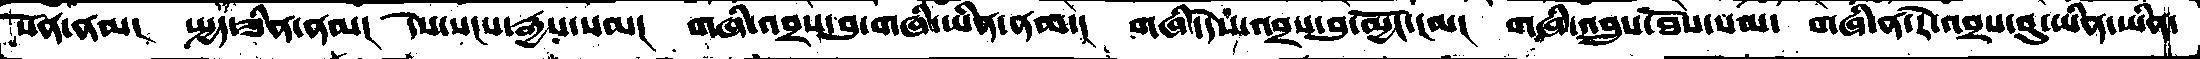སོན་ནམ།  སྤྱད་ཟིན་ནམ།  དེས་སངས་རྒྱས་སམ།  གཞི་འབྲས་བུ་གཞི་ཡིན་ནམ་།  གཞི་དེས་འབྲས་བུ་མྱོང་ངམ།  གཞི་འབྲུས་ཐོས་སམ་  གཞི་ན་རེ་འབྲས་བུ་ཡིན་ཡིན་
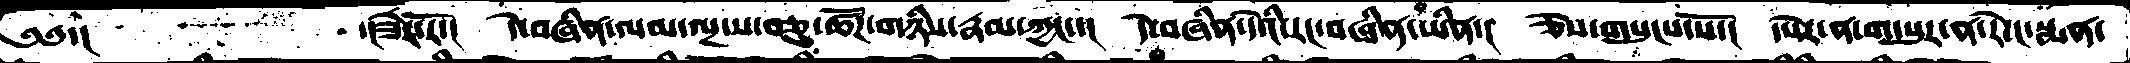༄༅་།     ་།ཟེར་རོ་།  དེ་བཞིན་ལམ་ལྔ་ས་བཅུ་ཚོཌ་གཉིས་རྣམ་ཀྱང་་།  དེ་བཞིན་དེའི་རང་བཞིན་ཡིན་།  ཅེས་གསུངས་སོ་།  དཔེར་ན་ག་པུར་ན་རེ་ང་སྨན་
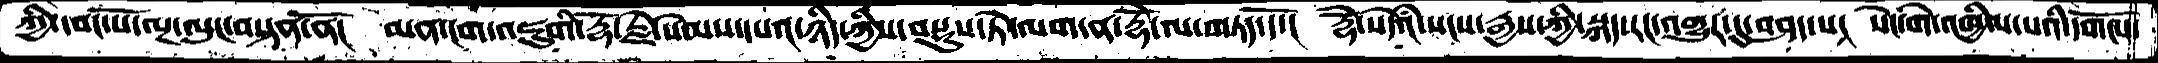ཀྱི་དབང་པོ་ལྔ་ལུང་བསྟན་ནོ། མན་ངག་འཇུགི་རྡོ་རྗེ་སེམས་དཔའ་ཉིད་ཀྱིས་བསྡུས་ཏེ་ལག་ན་རྡོ་རྗེ་ལ་གཏད་དོ་།  རྡོེ་སེདཾའ་སངས་རྒྱས་ཀྱི་སྐད་རང་འགྱུར་དུ་བཤད་།  སེང་གེ་འཁྱིལ་པའི་དགོངས་
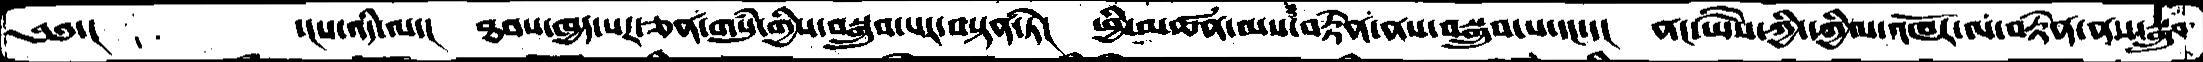༄༅་།     ་།ས་འདི་ལ་།  ཐབས་ཁྱད་པར་ཅན་གསུཾ་གྱིས་བསྒྲུབ་པར་བསྟན་ཏེ་།  ཕྱི་མཚན་མས་བརྟེན་ནས་བསྒྲུབ་པ་དང་་།  ནང་ཡཻས་ཀྱི་དཀྱིལ་འཁོར་ལ་བརྟེན་ནས་སྒྲུབ
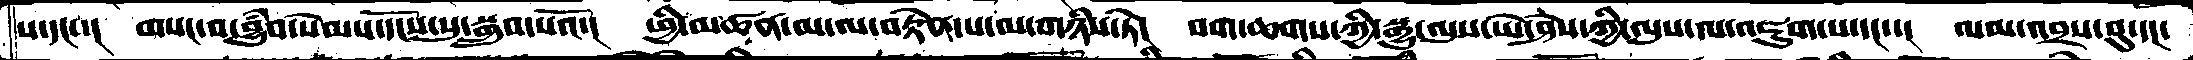པ་དང་་།  གསང་བ་བྱུཾབ་སེམས་དངོས་སུ་སྒྲུབ་པའོ་།  ཕྱི་མཚན་མ་ལ་བརྟེན་པ་ལ་གཉིས་ཏེ་།  བག་ཆགས་ཀྱི་སྒྱུ་ལུས་ཡེ་ཤེས་ཀྱི་ལུས་ལ་འཇུག་པ་དང་་།  ལམ་འབྲས་བུ་དང་
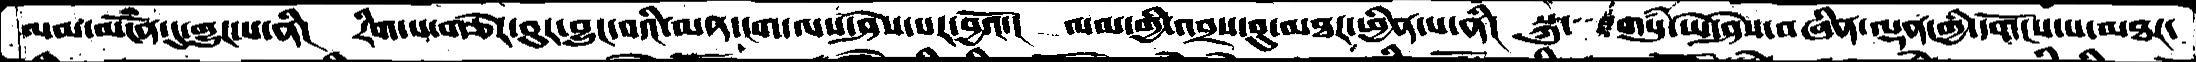ལམ་མངོན་དུ་གྱུར་པ་ནི།  རིག་པ་གཅེར་བུར་བྱུང་བའི་མན་ངག་ལས་ཤེས་པར་བྱའོ་།  ལམ་གྱི་འབྲས་བུ་མཐར་ཕྱིན་པ་ནི།  སྐུ་ གསུཾ་ཡེ་ཤེས་བཞིན་ལྡན་གྱི་དགོངས་པ་མཐར་
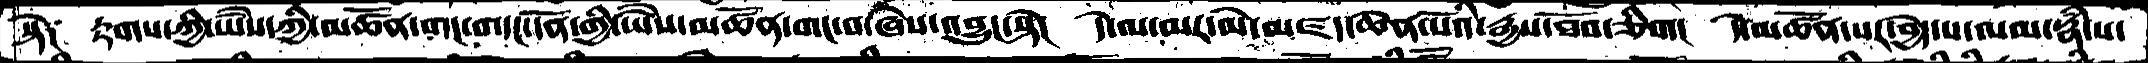སྟེ།   རྟགས་ཀྱི་ཡཻས་ཀྱི་མཚོན་གང་གདང་དོན་གྱི་ཡཻས་མཚོན་གང་བ་ཞེས་འབྱུང་སྟེ།  དེ་ལ་མར་མེ་མཛད་ཆེན་པོའི་རྒྱས་ཐོབ་ཅིག།  དེ་མཚོན་པར་བྱེད་པ་ལམ་རྣཾ་པ་
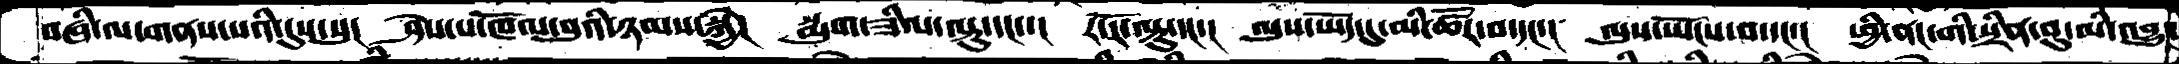བཞི་ལ་གནས་པའི་དུས་སུ།  ཤེས་པ་ཁོལ་བུའི་ཉམས་སྐྱེ།  སྨུག་ཟིལ་ལྟུ་དང་་།  ར་རོ་ལྟུ་དང་།  ལུས་ཡོད་དུ་མི་ཚོར་བ་དང་།  ལུས་ཡོངས་བ་དང་།  ཕྱི་ནང་གི་སྲིན་བུ་མི་འབྱུང་
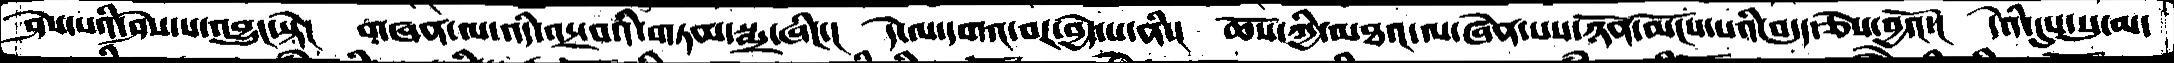ཤེས་པའི་ཤེས་པ་འབྱུང་སྟེ།   གཞན་ལ་འདི་འདྲ་བའི་གཏམ་སྨྲ་ཞིང་།  དེ་ལ་དགའ་བར་བྱེད་པ་ནི་།  ཆོས་ཀྱི་མཐའ་ལ་ཞེན་པས་ཉོན་མོངས་པའི་བདུད་ཅེས་བྱའོ་།  དེའི་དུས་སུ་མ་
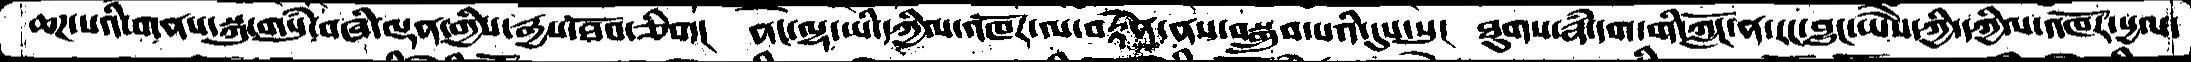ཆཌ་པའི་གནས་སྐུ་གསུཾ་བཞི་ལྡན་གྱིས་རྒྱས་ཐོབ་ཅིག།  ནང་ལྷ་ཡི་དཀྱིལ་འཁོར་ལ་བརྟེན་ནས་བསྒྲུབ་པའི་དུས་སུ།  ཐུགས་རྣཾ་དག་གི་ཀློང་ན་རང་བྱུང་ཡཻས་ཀྱི་དཀྱིལ་འཁོར་སྱལ་
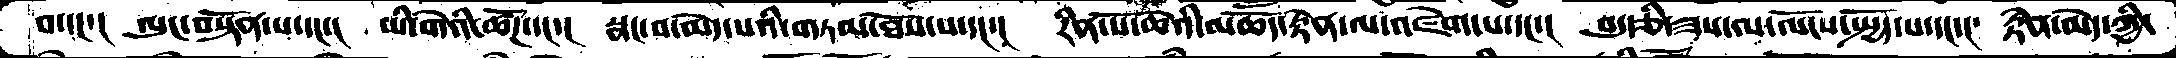བ་དང་།   ལུང་བསྟོན་པ་དང་།  ཡི་གེའི་ཚོཌ་དང་།  སྣང་བ་མེད་པའི་གཏམ་ཐོས་པ་དང་།   རིན་པོ་ཆེའི་མཆོད་རྟེན་ལ་འཛེག་པ་དང་།  བདུདརྩི་ཟས་ལ་ལོངས་སྤྱོད་པ་དང་།  རྟེན་མེད་ཀྱི་
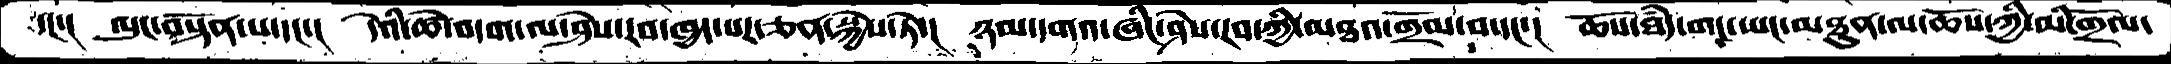དང་།   ལུང་བསྟོན་པ་དང་།  དེའི་ཚེ་བདག་ལ་ཤེས་རབ་ཁྱད་པར་ཅན་སྐྱེས་ཏེ་།   ཉམ་དགའ་ཞིང་ཤེས་རབ་ཀྱི་མཐའ་གྲོལ་བ་དང་།   ཆོས་ཐཾད་གང་ཡང་མཐུན་ལ་ཆོས་ཀྱི་མི་གྲོལ་
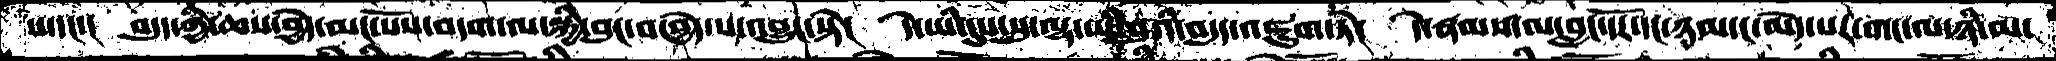པ་དང་།  བདུད་ཀྱི་ཆས་བྱེད་མང་པོས་བདག་ལ་སྐྱི་བུང་བ་བྱེད་པ་འབྱུང་སྟེ་།  དེ་ཡི་དུས་སུ་ལྷ་ཡི་བུའི་བདུད་འཇུག་ཏེ།  དེ་རྣམས་ལ་བླང་དོར་དང་ཉམ་ང་མེད་པར་གང་ལ་ཉི་མ་
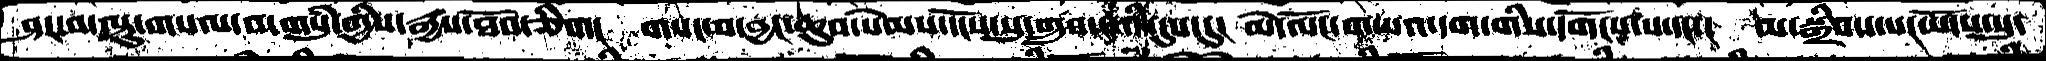ཤར་བ་ལྟུ་གསལ་བ་གསུཾ་གྱིས་རྒྱས་ཐོབ་ཅིག།   གསང་བ་བྱང་ཆུབ་སེམས་དངོས་སུ་གྲུབ་པའི་དུས་དུ།  མེ་ལོང་གཡའ་དག་གིས་དགོངས་པ་དང་།  མ་སྒྲིབས་ས་ཡོངས་སུ་
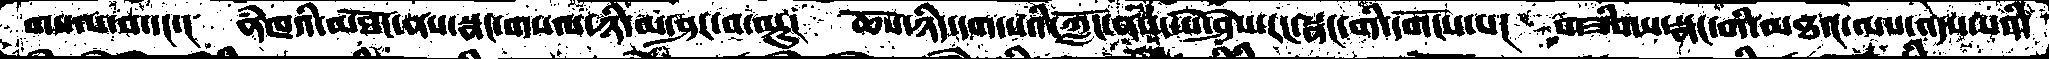གསལ་བ་དང་།  ནཾཁའི་མཐོང་ནས་སྣང་གསལ་ཉི་མ་ཤར་བ་ལྟུ།  ཆོས་ཉིད་དག་པའི་ཀློང་ནས་ཡེ་ཤེས་རང་སྣང་གི་དགོངས་པ།  གཟིགས་སྣང་གི་མཐའ་ལས་འདས་པའི་
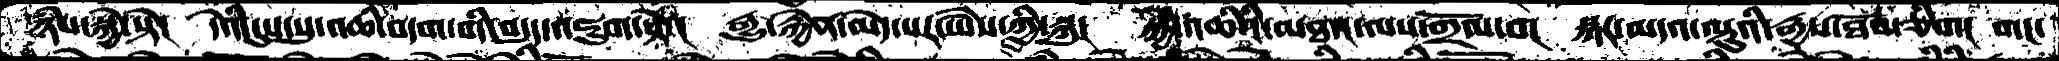ཉཾས་སྐྱེ་སྟེ།  དེའི་དུས་སུ་འཆི་བདག་གི་བདུད་འཇུག་སྟེ་།  རྒྱུ་རྐྱེན་མེད་པར་ཡཻས་ཀྱི་སྐུ།   སྐྱེ་འཆིའི་མཐའ་ལས་གྲོལ་བ།  སྐར་མདའ་ལྟུའི་རྒྱས་ཐོབ་ཅིག།  གང་
